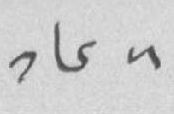༡༦༥
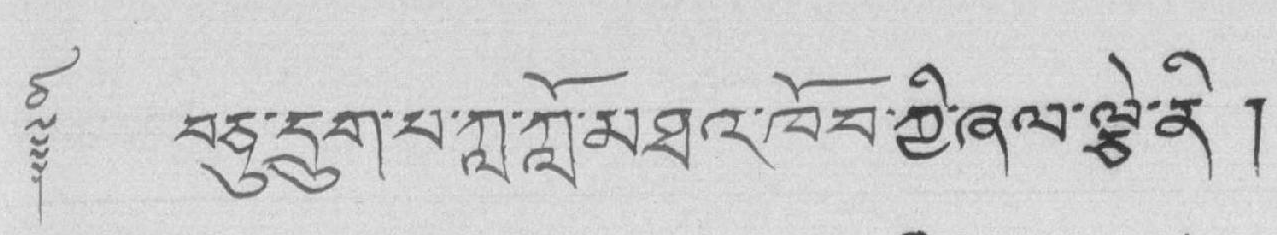༈ བཅུ་དྲུག་པ་ཀླ་ཀློ་མཐའ་ཁོབ་ཀྱི་ཞལ་ལྕེ་ནི །
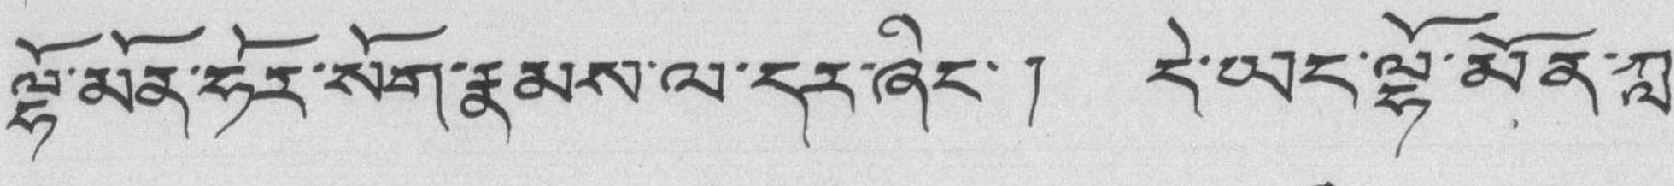ལྷོ་མོན་ཧོར་སོག་རྣམས་ལ་དར་ཞིང་། དེ་ཡང་ལྷོ་མོན་ཀླ་
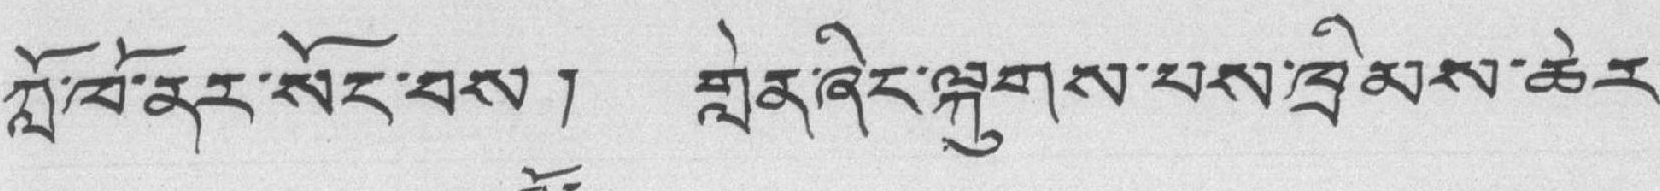ཀློ་ཁོ་ནར་སོང་བས། གླེན་ཞིང་ལྐུགས་པས་ཁྲིམས་ཆེར་
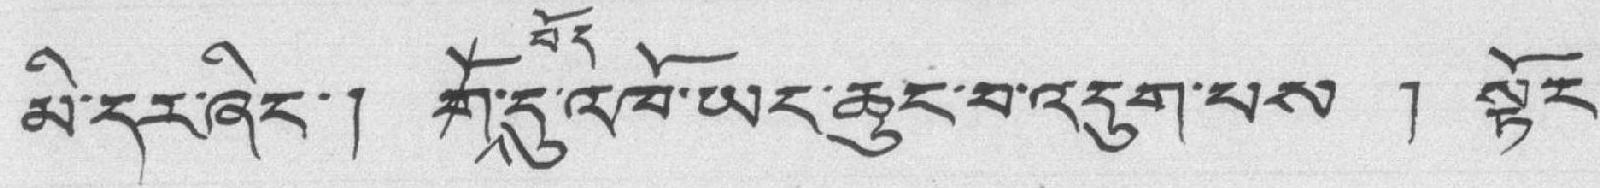མི་དར་ཞིང་། གོབོད་དུ་འེཁོ་ཡང་ཆུང་བ་འདུག་པས ། སྟོང་
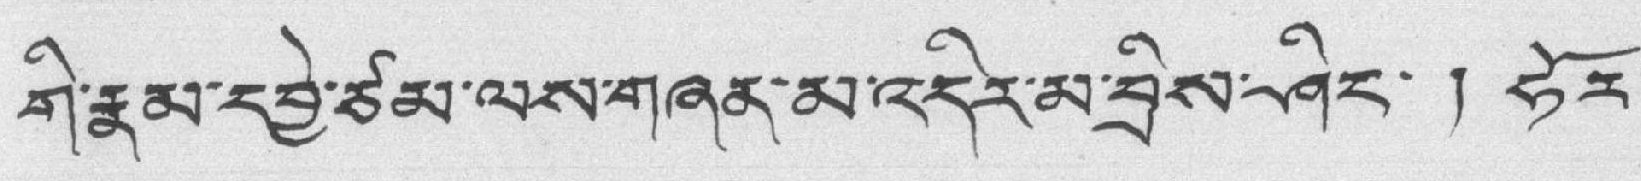གི་རྣམ་དབྱེ་ཙམ་ལས་གཞན་མ་འདིར་མ་བྲིས་ཤིང་ ། ཧོར་
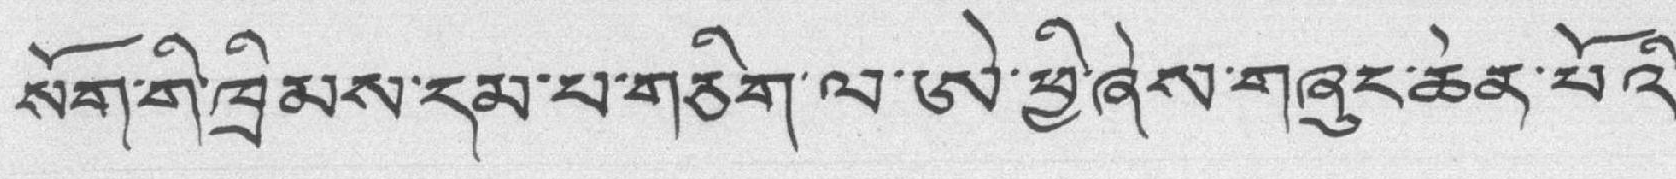སོག་གི་ཁྲིམས་དམ་པ་གཅིག་ལ་ཨེ་ཕྱི་ཞེས་གཞུང་ཆེན་པོའི་
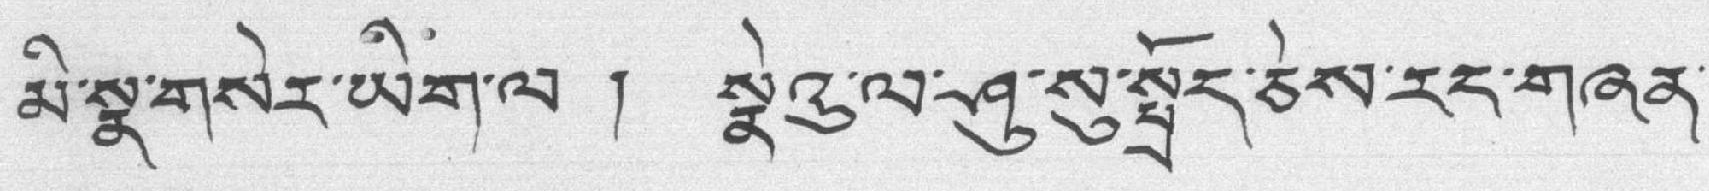མི་སྣ་གསེར་ཡིག་ལ ། སྣེའུ་ལ་ཤུ་སུ་སྤྲོད་ཅེས་རང་གཞན་
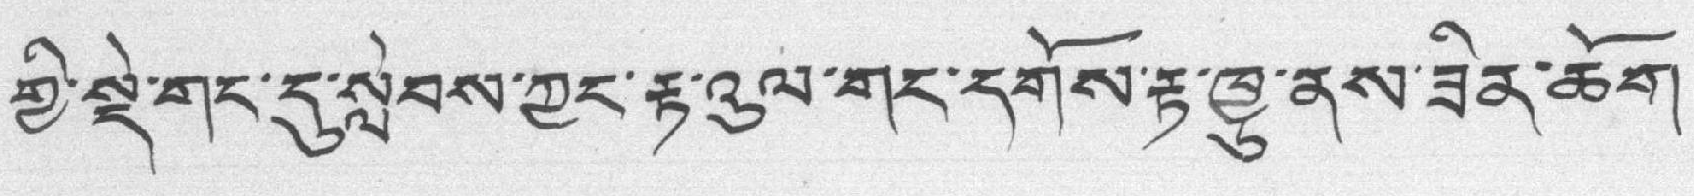གྱི་སྡེ་གང་དུ་སླེབས་ཀྱང་རྟ་འུལ་གང་དགོས་རྟ་ཁྱུ་ནས་ཟིན་ཆོག་
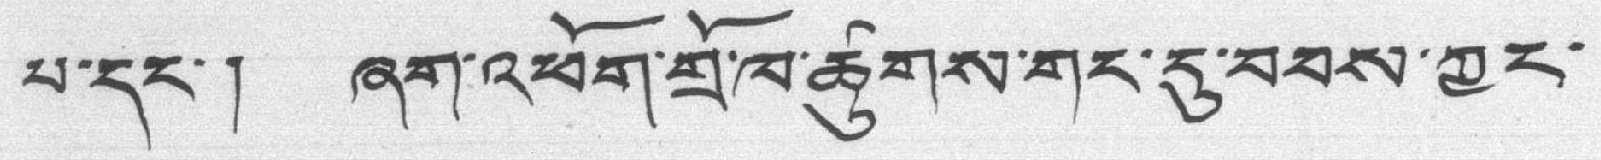པ་དང་། ཞག་འཕོག་གྲོ་ཁ་ཚུགས་གང་དུ་བབས་ཀྱང་
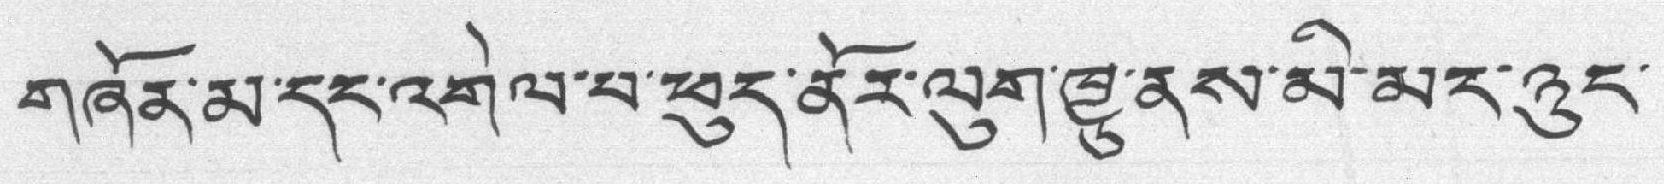གཞོན་མ་དང་འགེལ་པ་ཕུད་ནོར་ལུག་ཁྱུ་ནས་མི་མང་ཉུང་
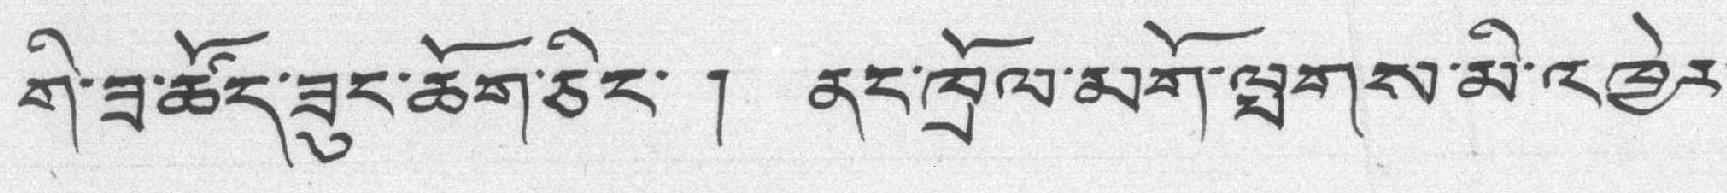གི་ཟ་ཚོད་ཟུང་ཆོག་ཅིང་ ། ནང་ཁྲོལ་མགོ་ལྤགས་མི་འཁྱེར་
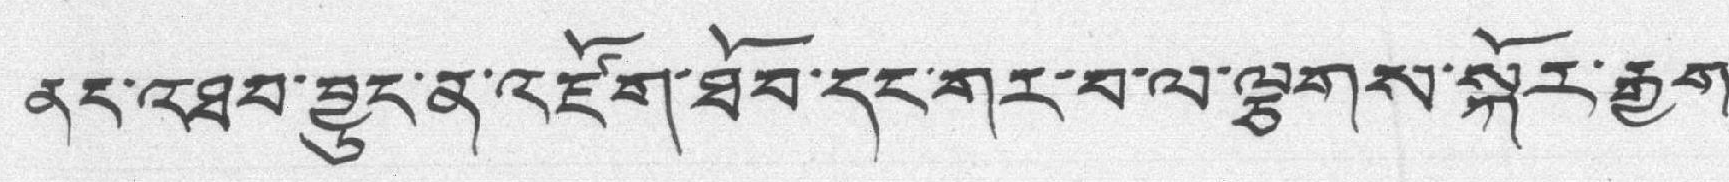ནང་འཐབ་བྱུང་ན་འཇོག་ཐོབ་དང་གར་བ་ལ་ལྕགས་སྐོར་རྒྱག་
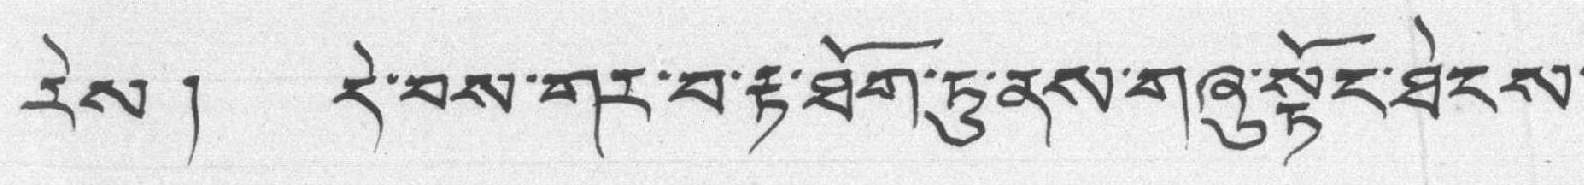རེས ། དེ་བས་གར་བ་རྟ་ཐོག་ཏུ་ནས་གཞུ་སྟོང་ཐེངས་
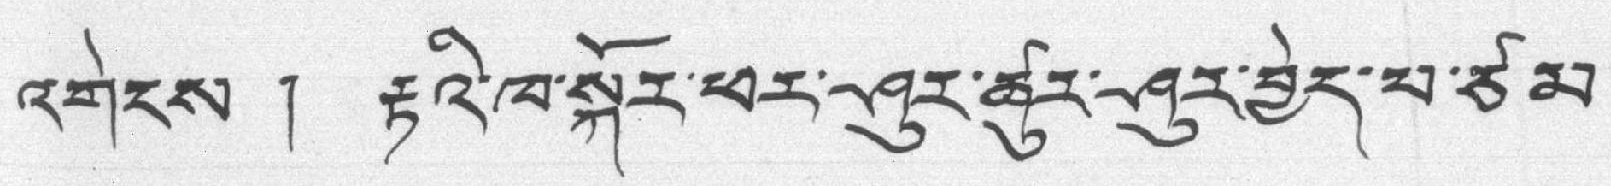འགེངས ། རྟའི་ཁ་སྐོར་ཕར་ཤུར་ཚུར་ཤུར་བྱེད་པ་ཙམ་
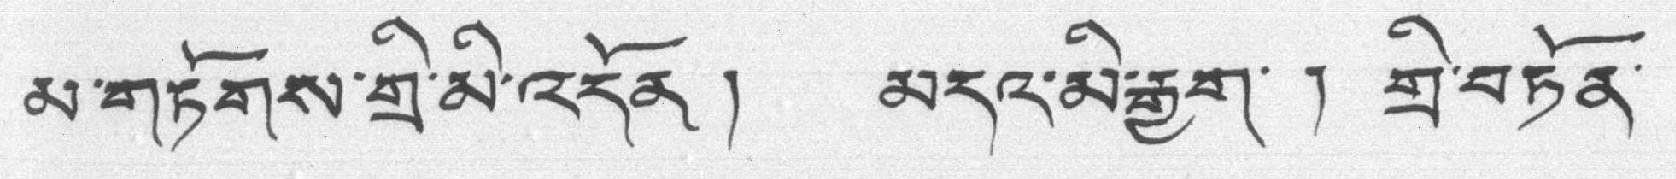མ་གཏོགས་གྲི་མི་འདོན ། མདའ་མི་རྒྱག་ ། གྲི་བཏོན་
